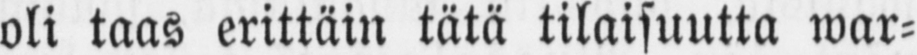oli taas erittäin tätä tilaisuutta war-
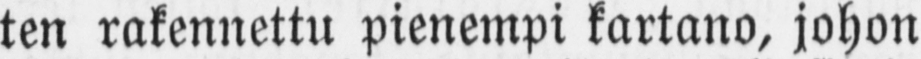ten rakennettu pienempi kartano, johon
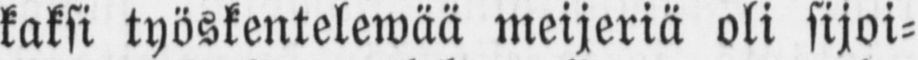kaksi työskentelewää meijeriä oli sijoi-
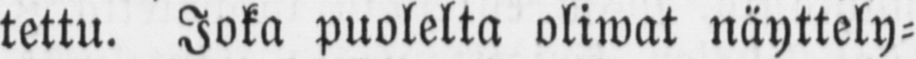tettu. Joka puolelta oliwat näyttely-
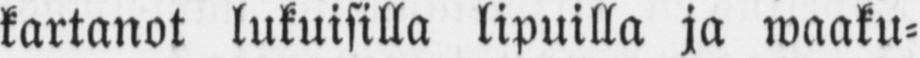kartanot lukuisilla lipuilla ja waaku-
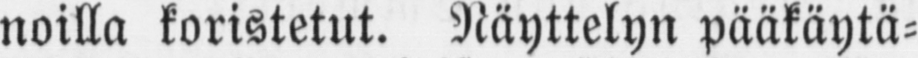noilla koristetut. Näyttelyn pääkäytä-
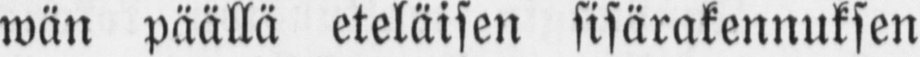wän päällä eteläisen sisärakennuksen
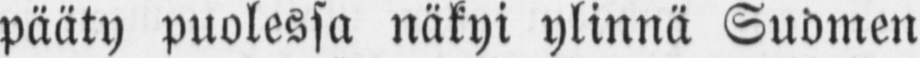pääty puolessa näkyi ylinnä Suomen
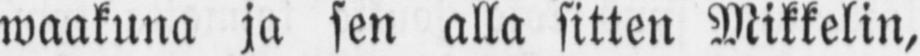waakuna ja sen alla sitten Mikkelin,
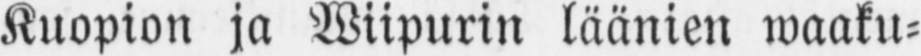Kuopion ja Wiipurin läänien waaku-
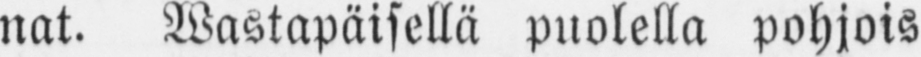nut. Wastapäisellä puolella Pohjois
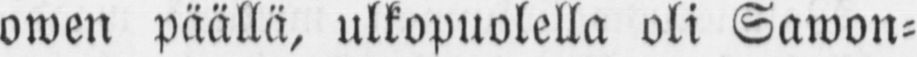owen päällä, ulkopuolella oli Sawon-
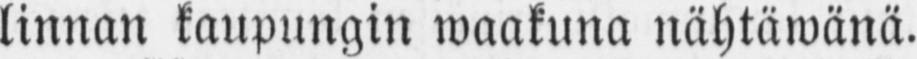linnan kaupungin waakuna nähtäwänä.
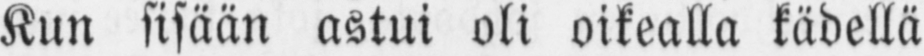Kun sisään astui oli oikealla kädellä
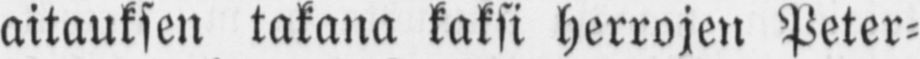aitauksen takana kaksi herrojen Peter-
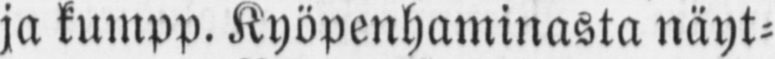ja kumpp. Kyöpenhaminasta näyt-
